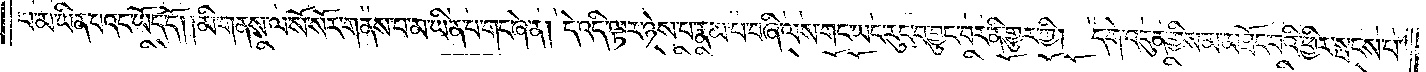པ་མ་ཡིན་པའང་ཡོད་དོ། །མི་གནས་ལ་སོ་སོར་གནས་པ་མ་ཡིན་པ་གང་ཞེ་ན། དེ་འདི་ལྟར་ཉེས་པ་རྣམ་པ་བཞི་ལས་གང་ཡང་རུང་བ་བྱུང་བར་ནི་གྱུར་གྱི། དགེ་འདུན་གྱིས་མ་མཐོང་བའི་ཕྱིར་སྤངས་པ་
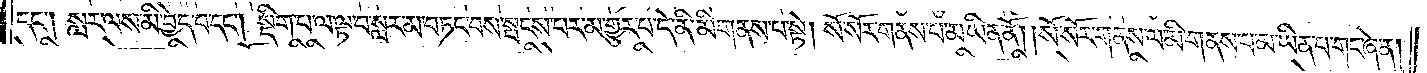དང༌། སླར་ལས་མི་བྱེད་པ་དང༌། སྡིག་པ་ལ་ལྟ་བ་སླར་མ་བཏང་བས་སྤངས་པར་མ་གྱུར་པ་དེ་ནི་མི་གནས་པ་སྟེ། སོ་སོར་གནས་པ་མ་ཡིན་ནོ། །སོ་སོར་གནས་ལ་མི་གནས་པ་མ་ཡིན་པ་གང་ཞེ་ན།
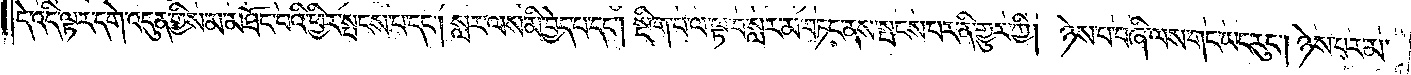དེ་འདི་ལྟར་དགེ་འདུན་གྱིས་མ་མཐོང་བའི་ཕྱིར་སྤངས་པ་དང༌། སླར་ལས་མི་བྱེད་པ་དང༌། སྡིག་པ་ལ་ལྟ་བ་སླར་མ་བཏང་ནས་སྤངས་པར་ནི་གྱུར་གྱི། ཉེས་པ་བཞི་ལས་གང་ཡང་རུང༌། ཉེས་པར་མ་
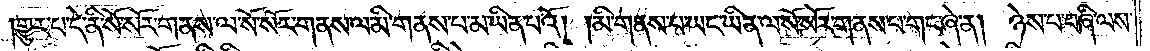གྱུར་པ་དེ་ནི་སོ་སོར་གནས་ལ་སོ་སོར་གནས་ལ་མི་གནས་པ་མ་ཡིན་པའོ། །མི་གནས་པ་ཡང་ཡིན་ལ་སོ་སོར་གནས་པ་གང་ཞེ་ན། ཉེས་པ་བཞི་ལས་
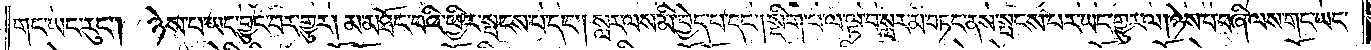གང་ཡང་རུང༌། ཉེས་པ་ཡང་བྱུང་བར་གྱུར། མ་མཐོང་བའི་ཕྱིར་སྤངས་པ་དང༌། སླར་ལས་མི་བྱེད་པ་དང༌། སྡིག་པ་ལ་ལྟ་བ་སླར་མ་བཏང་ནས་སྤངས་པར་ཡང་གྱུར་ལ། ཉེས་པ་བཞི་ལས་གང་ཡང་
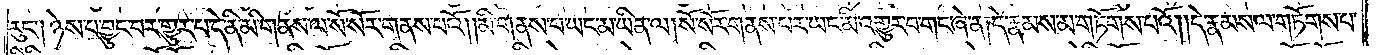རུང༌། ཉེས་པ་བྱུང་བར་གྱུར་པ་དེ་ནི་མི་གནས་ལ་སོ་སོར་གནས་པའོ། །མི་གནས་པ་ཡང་མ་ཡིན་ལ། སོ་སོར་གནས་པར་ཡང་མི་འགྱུར་བ་གང་ཞེ་ན། དེ་རྣམས་མ་གཏོགས་པའོ། །དེ་རྣམས་ལ་གཏོགས་པ་
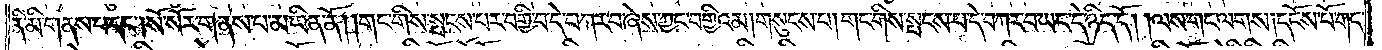ནི་མི་གནས་པ་དང༌། སོ་སོར་གནས་པ་མ་ཡིན་ནོ། །གང་གིས་སྤངས་པར་བགྱི་བ་དེ་བཀར་བ་ཞེས་ཀྱང་བགྱིའམ། གསུངས་པ། གང་གིས་སྤངས་པ་དེ་བཀར་བ་ཡང་དེ་ཉིད་དོ། །ལས་གང་ལགས། དངོས་པོ་གང་
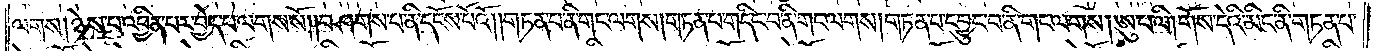ལགས། ཉེས་པ་འབྱིན་པར་བྱེད་པ་ལགས་སོ། །བཤགས་པ་ནི་དངོས་པོའོ། །གཏན་པ་ནི་གང་ལགས། གཏན་པ་གདིང་བ་ནི་གང་ལགས། གཏན་པ་དབྱུང་བ་ནི་གང་ལགས། ཨུ་པ་ལི། གོས་དེའི་མིང་ནི་གཏན་པ་
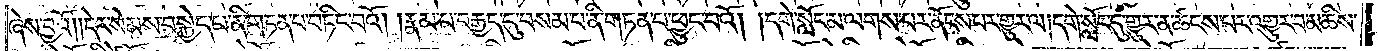ཞེས་བྱའོ། །དེར་སེམས་བསྐྱེད་པ་ནི་གཏན་པ་བཏིང་བའོ། །རྣམ་པ་བརྒྱད་དུ་བསམ་པ་ནི་གཏན་པ་ཕྱུང་བའོ། །དགེ་སློང་མ་ལགས་པར་ནོངས་པར་གྱུར་ལ། དགེ་སློང་དུ་གྱུར་ན་ཚངས་པར་འགྱུར་བ་མཆིས་
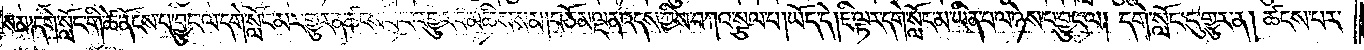སམ། དགེ་སློང་གི་ཚེ་ནོངས་པ་བྱུང་ལ་དགེ་སློང་མར་གྱུར་ན་ཚངས་པར་འགྱུར་བ་མཆིས་སམ། བཅོམ་ལྡན་འདས་ཀྱིས་བཀའ་སྩལ་པ། ཡོད་དེ། ཇི་ལྟར་དགེ་སློང་མ་ཡིན་པ་ལ་ཉེས་པ་བྱུང་ལ། དགེ་སློང་དུ་གྱུར་ན། ཚངས་པར་
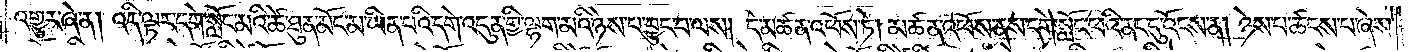འགྱུར་ཞེ་ན། འདི་ལྟར་དགེ་སློང་མའི་ཚེ་ཐུན་མོང་མ་ཡིན་པའི་དགེ་འདུན་གྱི་ལྷག་མའི་ཉེས་པ་བྱུང་བ་ལས། དེ་མཚན་འཕོས་ཏེ། མཚན་འཕོས་ནས་དགེ་སློང་ཕའི་ནང་དུ་འོངས་ན། ཉེས་པ་ཚངས་པ་ཞེས་
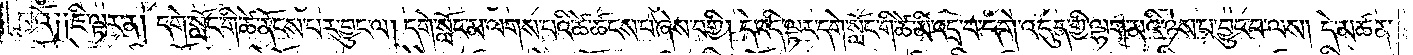བྱའོ༑ ༑ཇི་ལྟར་ན། དགེ་སློང་གི་ཚེ་ནོངས་པར་བྱུང་ལ། དགེ་སློང་མ་ལགས་པའི་ཚེ་ཚངས་པ་ཞེས་བགྱི། དེ་འདི་ལྟར་དགེ་སློང་གི་ཚེ་མི་འདྲ་བ་དགེ་འདུན་གྱི་ལྷག་མའི་ཉེས་པ་བྱུང་བ་ལས། དེ་མཚན་
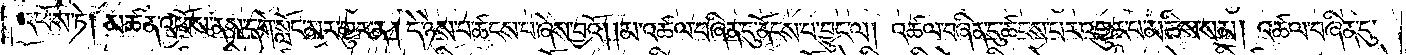འཕོས་ཏེ། མཚན་འཕོས་ནས་དགེ་སློང་མར་གྱུར་ན། དེ་ཉེས་པ་ཚངས་པ་ཞེས་བྱའོ། །མ་འཚལ་བཞིན་དུ་ནོངས་པ་བྱུང་ལ། འཚལ་བཞིན་དུ་ཚངས་པར་འགྱུར་པ་མཆིས་སམ། འཚལ་བཞིན་དུ་
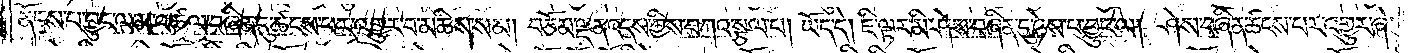ནོངས་པ་བྱུང་ལ་མ་འཚལ་བཞིན་དུ་ཚངས་པར་འགྱུར་བ་མཆིས་སམ། བཅོམ་ལྡན་འདས་ཀྱིས་བཀའ་སྩལ་པ། ཡོད་དེ། ཇི་ལྟར་མི་ཤེས་བཞིན་དུ་ཉེས་པ་བྱུང་ལ། ཤེས་བཞིན་ཚངས་པར་འགྱུར་ཞེ་
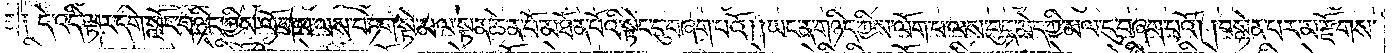ན༑ དེ་འདི་ལྟར་དགེ་སློང་གཉིད་ཀྱིས་ལོག་པ་ལས་བཏེག་སྟེ་མལ་སྟན་ཆེན་པོ་མཐོན་པོའི་སྟེང་དུ་བཞག་པའོ། །ཡང་ན་གཉིད་ཀྱིས་ལོག་པ་ལས་བུད་མེད་ཀྱི་མལ་དུ་བཞག་པའོ། །བསྙེན་པར་མ་རྫོགས་
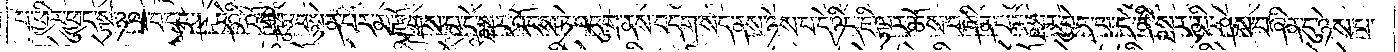པ་ཕྱིར་ཕྱུང་སྟེ་ཉལ་བ་དང༌། དེའི་འོག་ཏུ་བསྙེན་པར་མ་རྫོགས་པ་དེ་སླར་འོངས་ཏེ་འདུག་ནས་བདག་སད་ནས་ཉེས་པ་དེ་ཉིད་ཇི་ལྟར་ཆོས་བཞིན་པར་སླར་བྱེད་པ་དེ་ནི་སླར་མི་ཤེས་བཞིན་དུ་ཉེས་པ་
